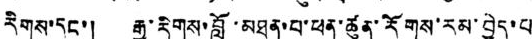རིགས་དང་། རྒྱ་རིགས་བློ་མཐུན་པ་ཕན་ཚུན་རོགས་རམ་བྱེད་པ
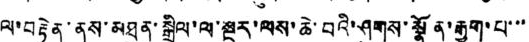ལ་བརྟེན་ནས་མཐུན་སྒྲིལ་ལ་སྔར་ལས་ཆེ་བའི་ཤུགས་སྣོན་རྒྱག་པ་་་
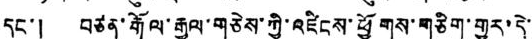དང་། བཙན་རྒོལ་རྒྱལ་གཅེས་ཀྱི་འཛིངས་ཕྱོགས་གཅིག་གྱུར་དེ་
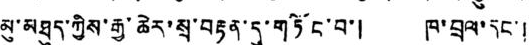མུ་མཐུད་ཀྱིས་རྒྱ་ཆེར་སྲ་བརྟན་དུ་གཏོང་བ་། ཁ་བྲལ་དང་།
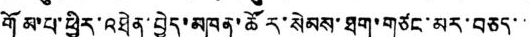གོམ་པ་ཕྱིར་འཐེན་བྱེད་མཁན་ཚོར་སེམས་ཐག་གཙང་མར་བཅད་་
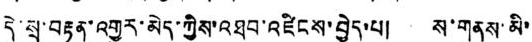དེ་སྲ་བརྟན་འགྱུར་མེད་ཀྱིས་འཐབ་འཛིངས་བྱེད་པ། ས་གནས་མི་
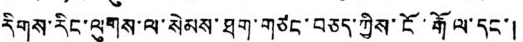རིགས་རིང་ལུགས་ལ་སེམས་ཐག་གཙང་བཅད་ཀྱིས་ངོ་རྒོལ་དང་།
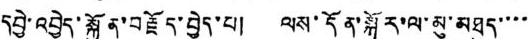དབྱེ་འབྱེད་སྐྱོན་བརྗོད་བྱེད་པ། ལས་དོན་སྐོར་ལ་མུ་མཐུད་་་་
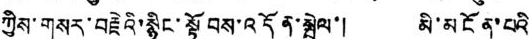ཀྱིས་གསར་བརྗེའི་སྙིང་སྟོབས་འདོན་སྤེལ་། མི་མངོན་པའི
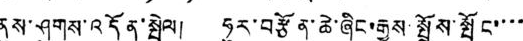ནུས་ཤུགས་འདོན་སྤེལ། ཧུར་བརྩོན་ཆེ་ཞིང་རྒྱས་སྤྲོས་སྤོང་་་་
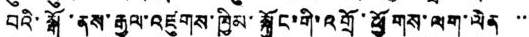བའི་སྒོ་ནས་རྒྱལ་འཛུགས་ཁྱིམ་སྐྱོང་གི་འགྲོ་ཕྱོགས་ལག་ལེན ་་་
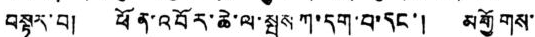བསྟར་བ། ཕོན་འབོར་ཆེ་ལ་སྤུས ཀ་དག་པ་དང་། མགྱོགས་
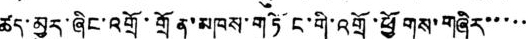ཚད་མྱུར་ཞིང་འགྲོ་གྲོན་མཁས་གཏོང་གི་འགྲོ་ཕྱོགས་གཞིར་་་་་
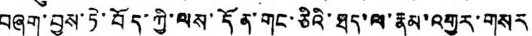བཞག་བྱས་ཏེ་བོད་ཀྱི་ལས་དོན་གང་ཅིའི་ཐད་ལ་རྣམ་འགྱུར་གསར
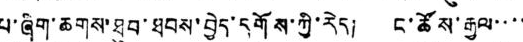པ་ཞིག་ཆགས་ཐུབ་ཐབས་བྱེད་དགོས་ཀྱི་རེད། ང་ཚོས་རྒྱལ་་་་
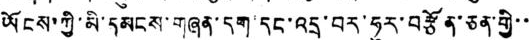ཡོངས་ཀྱི་མི་དམངས་གཞན་དག་དང་འདྲ་བར་ཧུར་བརྩོན་ཅན་གྱི་་
